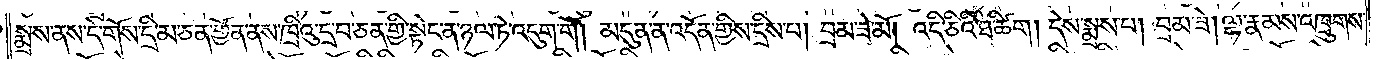སྨྲས་ནས་དེ་གོས་དྲི་མ་ཅན་གྱོན་ནས་ཁྲིའུ་དྲ་བ་ཅན་གྱི་སྟེང་ན་ཉལ་ཏེ་འདུག་གོ། མདུན་ན་འདོན་གྱིས་དྲིས་པ། བྲམ་ཟེ་མོ། འདི་ཅིའི་ཐ་ཚིག། དེས་སྨྲས་པ། བྲམ་ཟེ། ལྷ་རྣམས་འཁྲུགས་
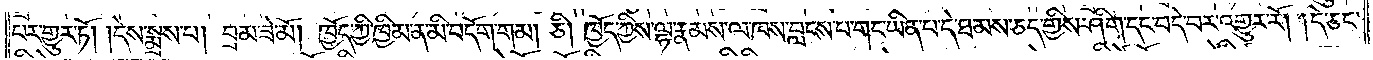པར་གྱུར་ཏོ། །དེས་སྨྲས་པ། བྲམ་ཟེ་མོ། ཁྱོད་ཀྱི་ཁྱིམ་ན་མི་བདོག་གམ། ཅི། ཁྱོད་ཀྱིས་ལྷ་རྣམས་ལ་ཁས་བླངས་པ་གང་ཡིན་པ་དེ་ཐམས་ཅད་གྱིས་ཤིག་དང་བདེ་བར་འགྱུར་རོ། །དེ་ཅང་
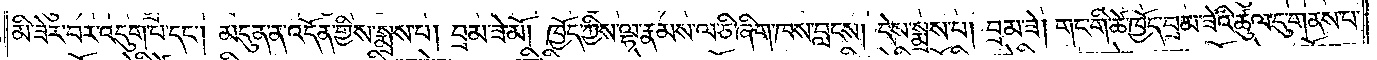མི་ཟེར་བར་འདུག་པ་དང༌། མདུན་ན་འདོན་གྱིས་སྨྲས་པ། བྲམ་ཟེ་མོ། ཁྱོད་ཀྱིས་ལྷ་རྣམས་ལ་ཅི་ཞིག་ཁས་བླངས། དེས་སྨྲས་པ། བྲམ་ཟེ། གང་གི་ཚེ་ཁྱོད་བྲམ་ཟེའི་ཚུལ་དུ་གནས་པ་
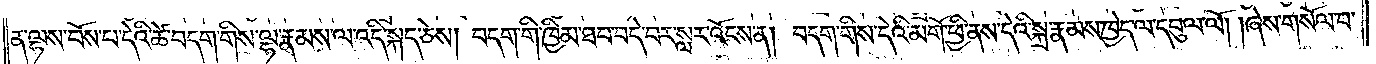ན་ལྷས་པོས་བ་དེའི་ཚེ་བདག་གིས་ལྷ་རྣམས་ལ་འདི་སྐད་ཅེས། བདག་གི་ཁྱིམ་ཐབ་བདེ་བར་སླར་འོངས་ན། བདག་གིས་དེའི་མགོ་ཕྱི་ནས་དེའི་སྐྲ་རྣམས་ཁྱེད་ལ་དབུལ་ལོ། །ཞེས་གསོལ་པ་
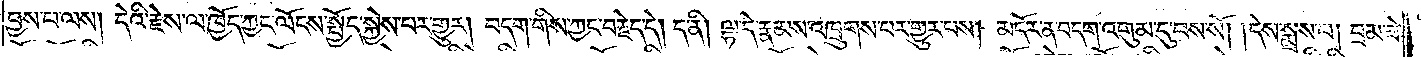བྱས་པ་ལས། དེའི་རྗེས་ལ་ཁྱོད་ཀྱང་ལོངས་སྤྱོད་སྐྱེས་པར་གྱུར། བདག་གིས་ཀྱང་བརྗེད་དེ། ད་ནི། ལྷ་དེ་རྣམས་འཁྲུགས་པར་གྱུར་པས། མདོར་ན་བདག་འགུམ་དུ་བས་སོ། །དེས་སྨྲས་པ། བྲམ་ཟེ་
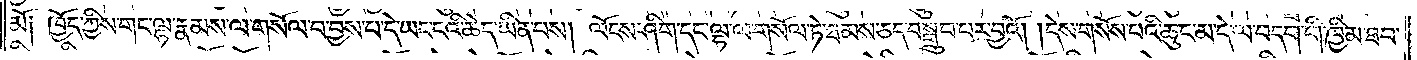མོ༑ ཁྱོད་ཀྱིས་གང་ལྷ་རྣམས་ལ་གསོལ་བ་བྱས་པ་དེ་ཡང་ངའི་ཆེད་ཡིན་པས། ལོངས་ཤིག་དང་ལྷ་ལ་གསོལ་ཏེ་ཐམས་ཅད་བསྒྲུབ་པར་བྱའོ། །དེས་གསོས་པའི་ཆུང་མ་དེ་ལ་བདག་གི་ཁྱིམ་ཐབ་
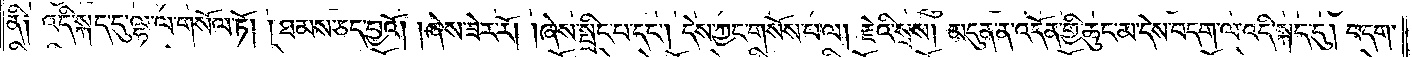ནི༑ འདི་སྐད་དུ་ལྷ་ལ་གསོལ་ཏོ། །ཐམས་ཅད་བྱའོ། །ཞེས་ཟེར་རོ། །ཞེས་སྤྲིང་པ་དང༌། དེས་ཀྱང་གསོས་པ་ལ། རྗེའི་སྲས། མདུན་ན་འདོན་གྱི་ཆུང་མ་དེས་བདག་ལ་འདི་སྐད་དུ། བདག་
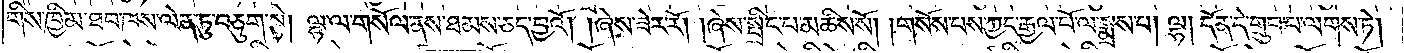གིས་ཁྱིམ་ཐབ་ཁས་ལེན་ཏུ་བཅུག་སྟེ། ལྷ་ལ་གསོལ་ནས་ཐམས་ཅད་བྱའོ། །ཞེས་ཟེར་རོ། །ཞེས་སྤྲིང་པ་མཆིས་སོ། །གསོས་པས་ཀྱང་རྒྱལ་པོ་ལ་སྨྲས་པ། ལྷ། དོན་དེ་གྲུབ་པ་ལགས་ཏེ།
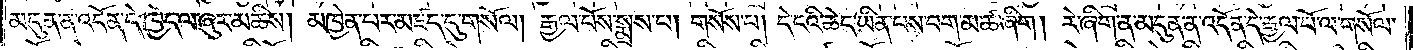མདུན་ན་འདོན་དེ་ཁྱེད་ལ་ཞུར་མཆིས། མཁྱེན་པར་མཛད་དུ་གསོལ། རྒྱལ་པོས་སྨྲས་པ། གསོས་པ། དེ་ངའི་ཆེད་ཡིན་པས་བག་མ་ཚ་ཞིག། རེ་ཞིག་ན་མདུན་ན་འདོན་དེ་རྒྱལ་པོ་ལ་གསོལ་
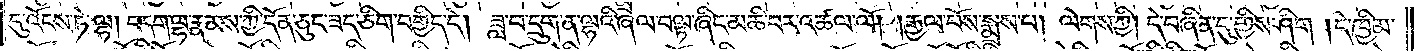དུ་འོངས་ཏེ་ལྷ། བདག་ལྷ་རྣམས་ཀྱི་དོན་ཅུང་ཟད་ཅིག་བགྱིད་དེ། ཟླ་བ་དྲུག་ན་ལྷའི་ཞལ་བལྟ་ཞིང་མཆི་བར་འཚལ་ལོ། །རྒྱལ་པོས་སྨྲས་པ། ལེགས་ཀྱི། དེ་བཞིན་དུ་གྱིས་ཤིག །དེ་ཁྱིམ་
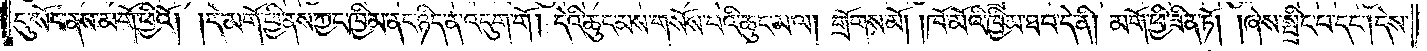དུ་སོང་ནས་མགོ་ཕྱིའོ། །དེ་མགོ་ཕྱི་ནས་ཀྱང་ཁྱིམ་ནང་ཉིད་ན་འདུག་གོ །དེའི་ཆུང་མས་གསོས་པའི་ཆུང་མ་ལ། གྲོགས་མོ། །ཁོ་མོའི་ཁྱིམ་ཐབ་དེ་ནི། མགོ་ཕྱི་ཟིན་ཏོ། །ཞེས་སྤྲིང་པ་དང༌། དེས་
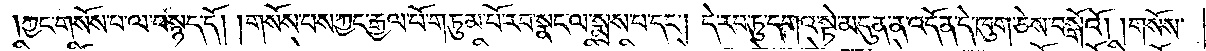ཀྱང་གསོས་པ་ལ་བསྙད་དོ། །གསོས་པས་ཀྱང་རྒྱལ་པོ་གཏུམ་པོ་རབ་སྣང་ལ་སྨྲས་པ་དང༌། དེ་རབ་ཏུ་དགའ་སྟེ་མདུན་ན་འདོན་དེ་ཁུག་ཅེས་བསྒོའོ། །གསོས་
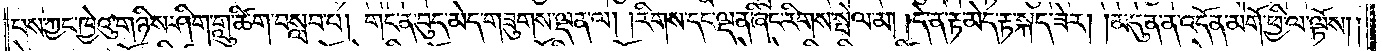པས་ཀྱང་ཁྱེའུ་གཉིས་ཤིག་གླུ་ཚིག་བསླབ་པ། གང་ན་བུད་མེད་གཟུགས་ལྡན་ལ། །རིགས་དང་ལྡན་ཞིང་རིགས་སྤེལ་མ། །དེ་ན་རྟ་མེད་རྟ་སྐད་ཟེར། །མདུན་ན་འདོན་མགོ་ཕྱི་ལ་ལྟོས། །
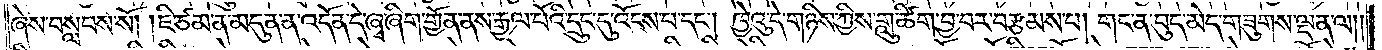ཞེས་བསླབས་སོ། །ཇི་ཙམ་ན་མདུན་ན་འདོན་དེ་ཞྭ་ཞིག་གྱོན་ནས་རྒྱལ་པོའི་དྲུང་དུ་འོངས་པ་དང༌། ཁྱེའུ་དེ་གཉིས་ཀྱིས་གླུ་ཚིག་བྱ་བར་བརྩམས་པ། གང་ན་བུད་མེད་གཟུགས་ལྡན་ལ༎
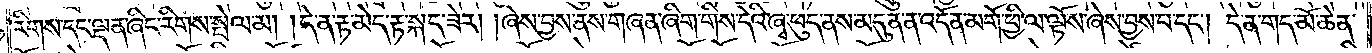རིགས་དང་ལྡན་ཞིང་རིགས་སྤེལ་མ། །དེ་ན་རྟ་མེད་རྟ་སྐད་ཟེར། །ཞེས་བྱས་ནས་གཞན་ཞིག་གིས་དེའི་ཞྭ་ཕུད་ནས་མདུན་ན་འདོན་མགོ་ཕྱི་ལ་ལྟོས་ཞེས་བྱས་པ་དང༌། དེ་ན་གད་མོ་ཆེན་
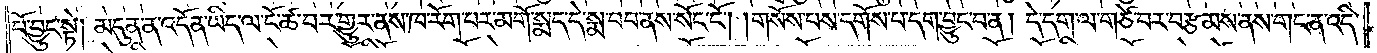པོ་བྱུང་སྟེ། མདུན་ན་འདོན་ཡིད་ལ་ངོ་ཚ་བར་གྱུར་ནས་ཁ་རོག་པར་མགོ་སྨད་དེ་སྨ་བབ་ནས་སོང་ངོ༌། །གསོས་པས་དགོས་པ་དག་བྱུང་བ་ན། དེ་དག་ལ་གཙེ་བར་བརྩམས་ནས་གང་ན་འདི་
